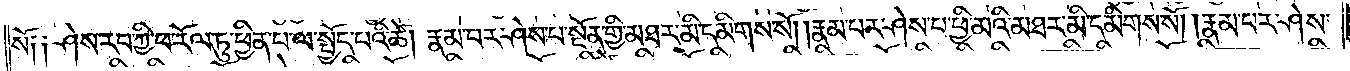སོ༑ ༑ཤེས་རབ་ཀྱི་ཕ་རོལ་ཏུ་ཕྱིན་པ་ལ་སྤྱོད་པའི་ཚེ། རྣམ་པར་ཤེས་པ་སྔོན་གྱི་མཐར་མི་དམིགས་སོ། །རྣམ་པར་ཤེས་པ་ཕྱི་མའི་མཐར་མི་དམིགས་སོ། །རྣམ་པར་ཤེས་
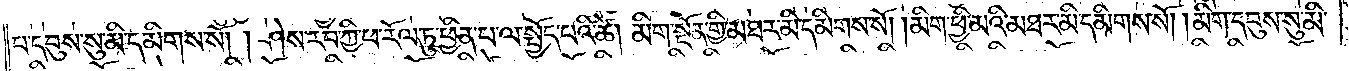པ་དབུས་སུ་མི་དམིགས་སོ། །ཤེས་རབ་ཀྱི་ཕ་རོལ་ཏུ་ཕྱིན་པ་ལ་སྤྱོད་པའི་ཚེ། མིག་སྔོན་གྱི་མཐར་མི་དམིགས་སོ། །མིག་ཕྱི་མའི་མཐར་མི་དམིགས་སོ། །མིག་དབུས་སུ་མི་
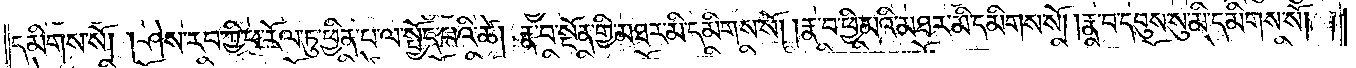དམིགས་སོ། །ཤེས་རབ་ཀྱི་ཕ་རོལ་ཏུ་ཕྱིན་པ་ལ་སྤྱོད་པའི་ཚེ། རྣ་བ་སྔོན་གྱི་མཐར་མི་དམིགས་སོ། །རྣ་བ་ཕྱི་མའི་མཐར་མི་དམིགས་སོ། །རྣ་བ་དབུས་སུ་མི་དམིགས་སོ། །
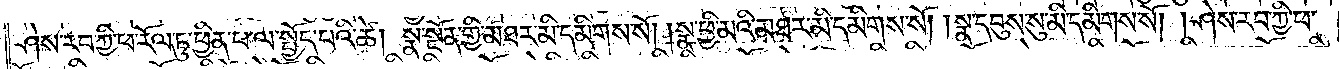ཤེས་རབ་ཀྱི་ཕ་རོལ་ཏུ་ཕྱིན་པ་ལ་སྤྱོད་པའི་ཚེ། སྣ་སྔོན་གྱི་མཐར་མི་དམིགས་སོ། །སྣ་ཕྱི་མའི་མཐར་མི་དམིགས་སོ། །སྣ་དབུས་སུ་མི་དམིགས་སོ། །ཤེས་རབ་ཀྱི་ཕ་
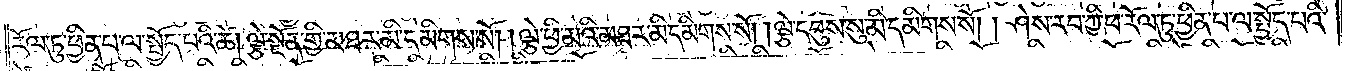རོལ་ཏུ་ཕྱིན་པ་ལ་སྤྱོད་པའི་ཚེ། ལྕེ་སྔོན་གྱི་མཐར་མི་དམིགས་སོ། །ལྕེ་ཕྱི་མའི་མཐར་མི་དམིགས་སོ། །ལྕེ་དབུས་སུ་མི་དམིགས་སོ། །ཤེས་རབ་ཀྱི་ཕ་རོལ་ཏུ་ཕྱིན་པ་ལ་སྤྱོད་པའི་
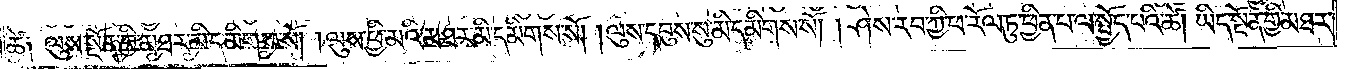ཚེ༑ ལུས་སྔོན་གྱི་མཐར་མི་དམིགས་སོ། །ལུས་ཕྱི་མའི་མཐར་མི་དམིགས་སོ། །ལུས་དབུས་སུ་མི་དམིགས་སོ། །ཤེས་རབ་ཀྱི་ཕ་རོལ་ཏུ་ཕྱིན་པ་ལ་སྤྱོད་པའི་ཚེ། ཡིད་སྔོན་གྱི་མཐར་
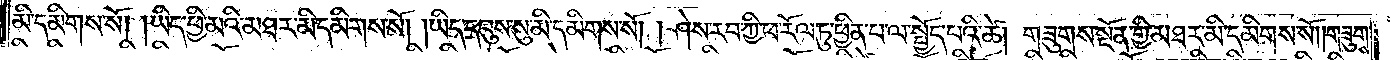མི་དམིགས་སོ། །ཡིད་ཕྱི་མའི་མཐར་མི་དམིགས་སོ། །ཡིད་དབུས་སུ་མི་དམིགས་སོ། །ཤེས་རབ་ཀྱི་ཕ་རོལ་ཏུ་ཕྱིན་པ་ལ་སྤྱོད་པའི་ཚེ། གཟུགས་སྔོན་གྱི་མཐར་མི་དམིགས་སོ། །གཟུགས་
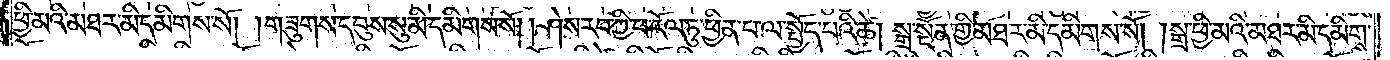ཕྱི་མའི་མཐར་མི་དམིགས་སོ། །གཟུགས་དབུས་སུ་མི་དམིགས་སོ། །ཤེས་རབ་ཀྱི་ཕ་རོལ་ཏུ་ཕྱིན་པ་ལ་སྤྱོད་པའི་ཚེ། སྒྲ་སྔོན་གྱི་མཐར་མི་དམིགས་སོ། །སྒྲ་ཕྱི་མའི་མཐར་མི་དམིགས་
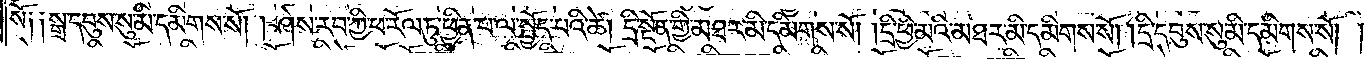སོ༑ ༑སྒྲ་དབུས་སུ་མི་དམིགས་སོ། །ཤེས་རབ་ཀྱི་ཕ་རོལ་ཏུ་ཕྱིན་པ་ལ་སྤྱོད་པའི་ཚེ། དྲི་སྔོན་གྱི་མཐར་མི་དམིགས་སོ། །དྲི་ཕྱིར་མའི་མཐར་མི་དམིགས་སོ། །དྲི་དབུས་སུ་མི་དམིགས་སོ། །
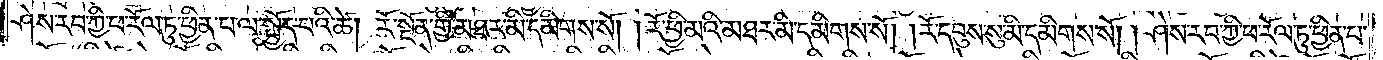ཤེས་རབ་ཀྱི་ཕ་རོལ་ཏུ་ཕྱིན་པ་ལ་སྤྱོད་པའི་ཚེ། རོ་སྔོན་གྱི་མཐར་མི་དམིགས་སོ། །རོ་ཕྱི་མའི་མཐར་མི་དམིགས་སོ། །རོ་དབུས་སུ་མི་དམིགས་སོ། །ཤེས་རབ་ཀྱི་ཕ་རོལ་ཏུ་ཕྱིན་པ་
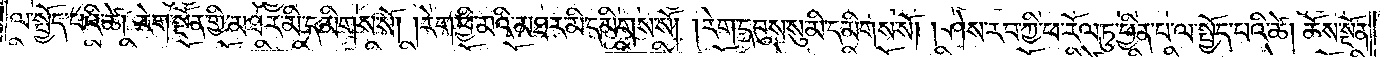ལ་སྤྱོད་པའི་ཚེ། རེག་སྔོན་གྱི་མཐར་མི་དམིགས་སོ། །རེག་ཕྱི་མའི་མཐར་མི་དམིགས་སོ། །རེག་དབུས་སུ་མི་དམིགས་སོ། །ཤེས་རབ་ཀྱི་ཕ་རོལ་ཏུ་ཕྱིན་པ་ལ་སྤྱོད་པའི་ཚེ། ཆོས་སྔོན་
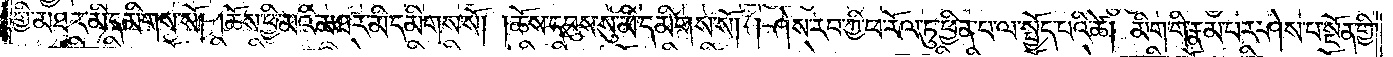གྱི་མཐར་མི་དམིགས་སོ། །ཆོས་ཕྱི་མའི་མཐར་མི་དམིགས་སོ། །ཆོས་དབུས་སུ་མི་དམིགས་སོ། །ཤེས་རབ་ཀྱི་ཕ་རོལ་ཏུ་ཕྱིན་པ་ལ་སྤྱོད་པའི་ཚེ། མིག་གི་རྣམ་པར་ཤེས་པ་སྔོན་གྱི་
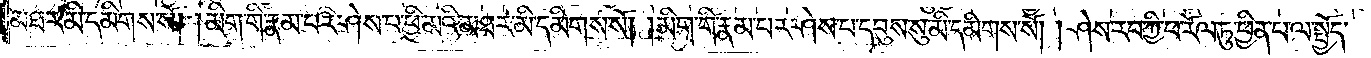མཐར་མི་དམིགས་སོ། །མིག་གི་རྣམ་པར་ཤེས་པ་ཕྱི་མའི་མཐར་མི་དམིགས་སོ། །མིག་གི་རྣམ་པར་ཤེས་པ་དབུས་སུ་མི་དམིགས་སོ། །ཤེས་རབ་ཀྱི་ཕ་རོལ་ཏུ་ཕྱིན་པ་ལ་སྤྱོད་
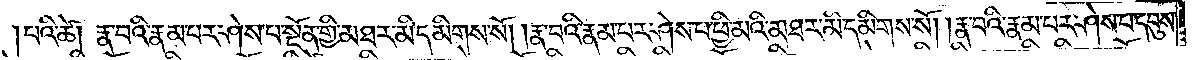པའི་ཚེ། རྣ་བའི་རྣམ་པར་ཤེས་པ་སྔོན་གྱི་མཐར་མི་དམིགས་སོ། །རྣ་བའི་རྣམ་པར་ཤེས་པ་ཕྱི་མའི་མཐར་མི་དམིགས་སོ། །རྣ་བའི་རྣམ་པར་ཤེས་པ་དབུས་
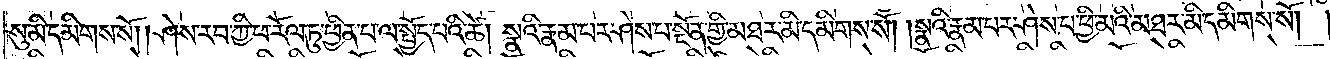སུ་མི་དམིགས་སོ། །ཤེས་རབ་ཀྱི་ཕ་རོལ་ཏུ་ཕྱིན་པ་ལ་སྤྱོད་པའི་ཚེ། སྣའི་རྣམ་པར་ཤེས་པ་སྔོན་གྱི་མཐར་མི་དམིགས་སོ། །སྣའི་རྣམ་པར་ཤེས་པ་ཕྱི་མའི་མཐར་མི་དམིགས་སོ། །
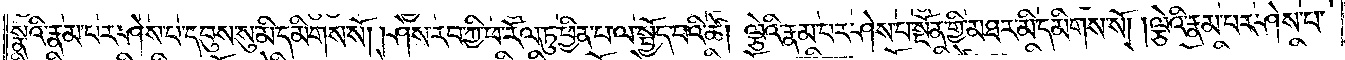སྣའི་རྣམ་པར་ཤེས་པ་དབུས་སུ་མི་དམིགས་སོ། །ཤེས་རབ་ཀྱི་ཕ་རོལ་ཏུ་ཕྱིན་པ་ལ་སྤྱོད་པའི་ཚེ། ལྕེའི་རྣམ་པར་ཤེས་པ་སྔོན་གྱི་མཐར་མི་དམིགས་སོ། །ལྕེའི་རྣམ་པར་ཤེས་པ་
